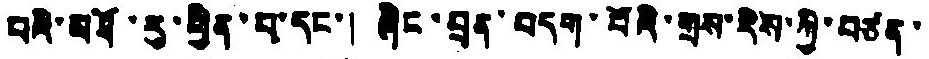བའི་མཐོ་རུ་ཕྱིན་པ་དང་། ཞིང་བྲན་བདག་པོའི་གྲས་རིས་ཀྱི་བཙན་
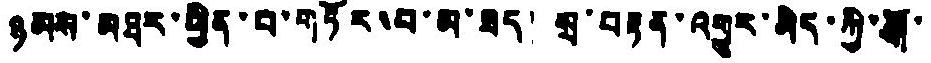ཉམས་མཐར་ཕྱིན་པ་གཏོར་བ་མ་ཟད། སྲ་བརྟན་འགྱུར་མེད་ཀྱི་སྒོ་
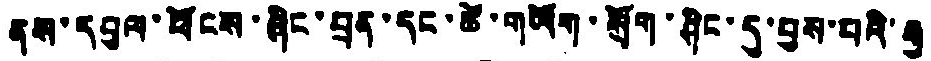ནས་དབུལ་ཕོངས་ཞིང་བྲན་དང་ཚེ་གཡོག་སྲོག་ཤིང་དུ་བྱས་པའི་རྒྱ
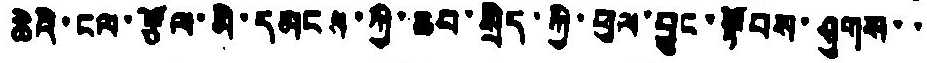ཆེའི་ངལ་རྩོལ་མི་དམངས་ཀྱི་ཆབ་སྲིད་ཀྱི་ཕུལ་བྱུང་སྟོབས་ཤུགས་་
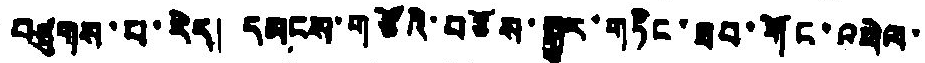བཙུགས་པ་རེད། དམངས་གཙོའི་བཙོས་སྒྱུར་གཏིང་ཟབ་གོང་འཕེལ་
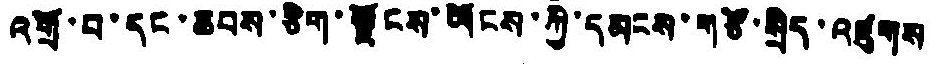འགྲོ་བ་དང་ཆབས་ཅིག་ལྗོངས་ཡོངས་ཀྱི་དམངས་གཙོ་སྲིད་འཛུགས
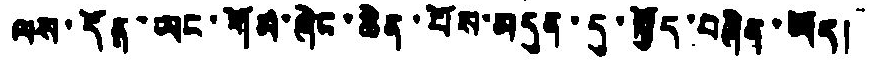ལས་དོན་ཡང་གོམ་ཞིང་ཆིན་པོས་མདུན་དུ་སྐྱོད་བཞིན་ཡོད།
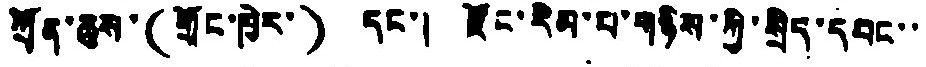ཀྲོན་ཆུས་(གྲོང་ཁྱེར་) དང་། རྫོང་རིམ་པ་གཉིས་ཀྱི་སྲིད་དབང་་་
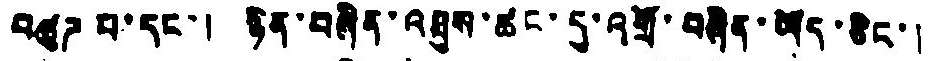བཚུཌ པ་དང་། ཉིན་བཞིན་འཐུས་ཚང་དུ་འགྲོ་བཞིན་ཡོད་ཅིང་།
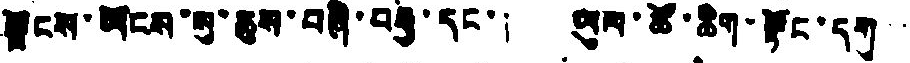ལྗོངས་ཡོངས་སུ་ཆུས་བཞི་བརྒྱ་དང་། ཡུལ་ཚོ་ཆིག་རྟོང་དགུ་་་
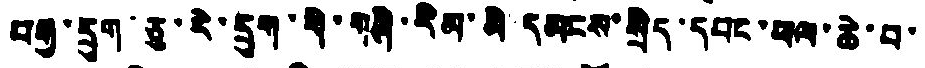བརྒྱ་དྲུག་ཅུ་རི་དྲུག་གི་གཞི་རིམ་མི དམངས་སྲིད་དབང་ཕལ་ཆེ་བ་
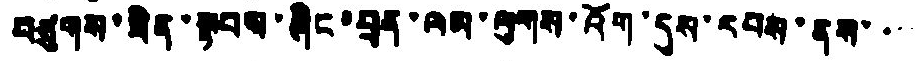བརྩུགས་ཟིན་སྟབས་ཞིང་བྲན་ལམ་ལུགས་འོག་དུས་རབས་ནས་་་
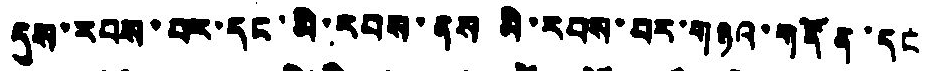དུས་རབས་བར་དང་མི་རབས་ནས མི་རབས་བར་གཉའ་གདོན་དང
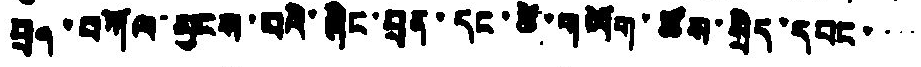བྲན་བཀོལ་མྱངས་པའི་ཞིང་བྲན་དང་ཆེ་གཡོག་ཆོས་སྲིད་དབང་་་་
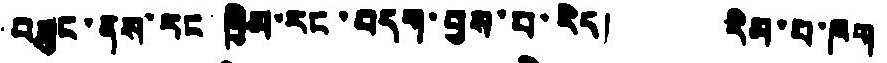བཟུང་ནས་རང ཁྱིམ་རང་བདག་བྱས་པ་རེད། རིམ་པ་ཁག
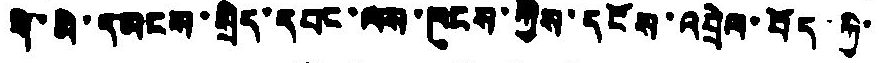གི་མི་དམངས་སྲིད་དབང་ལས་ཁུངས་ཀྱིས་དངོས་འབྲེལ་བོད་ཀྱི་
